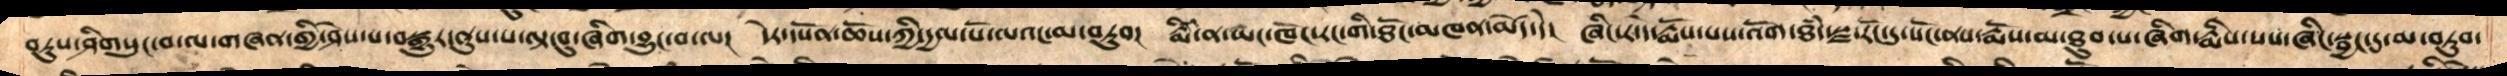བཏུས་ཤིགསུང་བ་ལ་གཞན་གྱི་ཤེས་པ་བསྒྱུར་ནུས་པ་ལྟ་བུ་ཞིག་བྱུང་བ་ལ།   དེར་དཔོན་ཆོས་ཀྱི་དྱལ་པོ་ལའང་མ་བཏུབ།   རྨིཾ་ན་ཡང་ཁོང་རང་གི་ཐོང་མཁན་མཛེད་དེ།   ཞིང་ར་དེ་རྨོས་པས་འོག་ཐཾད་སྫ་རོང་དུ་སོང་ནས་རྨོས་མ་ཐུབ་པ་ཞིག་རྨིས་པས་ཞིང་སྦྱང་དུ་མ་བཏུབ་
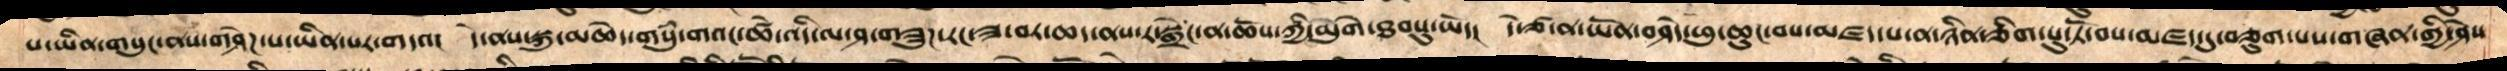པ་ཡིན་གསུང་ནས་གཤེཌ་པ་ཡིན་པར་གདའ།   དེ་ནས་སྐུ་མཆེད་གསུཾ་གའང་ཚེ་འདི་ལ་ཤ་གཟུཌ་རང་ཟ་བར་ཆད་ནས་ར་སྒྲེང་ན་ཆོས་ཀྱི་མུགེ་ཐབསུ་ཡོད།  དེ་ཙ་ན་ཡོན་བཤེད་ཕུ་ཆུང་བས་མཛད་པ་ན་ཉིན་ཅིག་པུ་ཏོ་བས་མཛད་དུ་བཅུག་པས་གཞན་གྱི་ཤེས
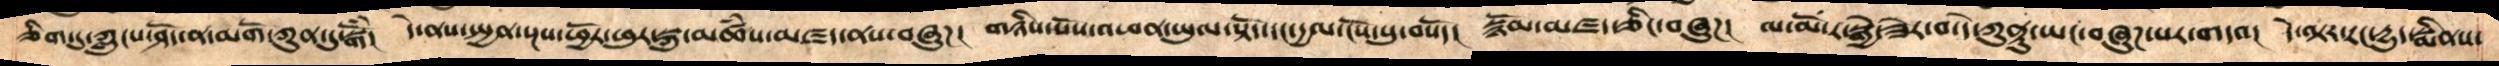ཅིག་དུ་ཀླུངས་ཤོད་ན་མགོ་ཀུན་དུ་སྒོཾ།   དེ་ནས་སྤྱན་སྔས་ཕྱོར་ཕུར་སྐུ་མཚཾས་མཛད་ནས་བཞུཌ།   གཉིས་པོས་འཕན་ཡུལ་སྟོད་དང་དྱལ་ངོས་སུ་བསོད།  སྙོམ་མཛད་ཅིང་བཞུཌ།   ལ་མོ་ར་སྒྱེ་ཟེར་བ་དེ་ཀུནྟུ་ཡང་བཞུཌ་པར་གདའ།   དེ་ལྟར་རང་དྱུད་སྨིནས་
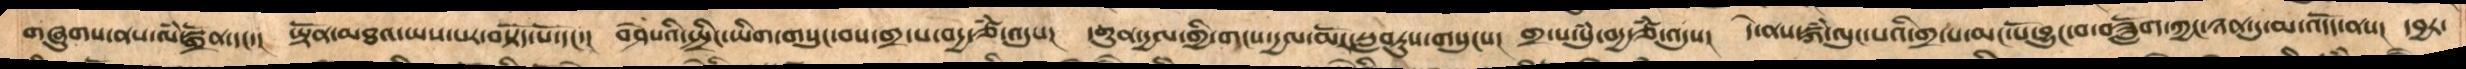གཞུགས་ནས་ལཾ་སྒྲོན་དང་།   ཡྟོན་མཐས་ཡས་པར་བསྟོད་པོ་དང་།   བཤེསའི་སྤྲིང་ཡིག་གསུང་བས་གྲ་པ་བདྱ་ཙཾ་འདུས།   དགུན་དྱལ་གྱི་གངས་དྱལ་མོར་སླབཏུས་གསུངས།   གྲ་པ་སུཾ་བདྱ་ཙཾ་འདུས།    དེ་ནས་སྐཾ་ལུང་པའི་གྲ་པ་མང་པོ་བྱུང་བ་བཟློག་ཀྱང་ཉན་དུ་མ་འདོད་ནས།  དབྱར་
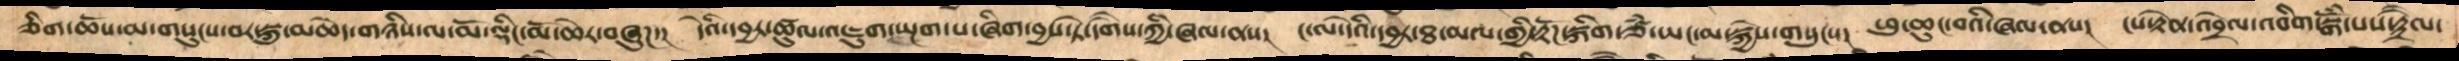ཅིག་ཆོས་མ་གསུངས་བར་སྐུ་མཆེད་གཉིས་ལ་མོ་ལྡིང་མོ་ཆེར་བཞུཌ་།   དེའི་དབྱར་ཚུལ་འཇུག་ཡྔག་པ་ཞིག་བྱས་ཏེ་དགཻས་ཀྱི་ཞལ་ནས།  ང་ལ་དེའི་དབྱར་ཐ་མལ་གྱི་རྟོཌ་སྐིག་ཙཾ་ཡང་མ་སྐྱེས་གསུངས།   ཕུ་ཆུང་བའི་ཞལ་ནས།  ངས་རྟེན་འབྲེལ་འབིག་སྒོཾ་པས་རྟྲྲཻལ་
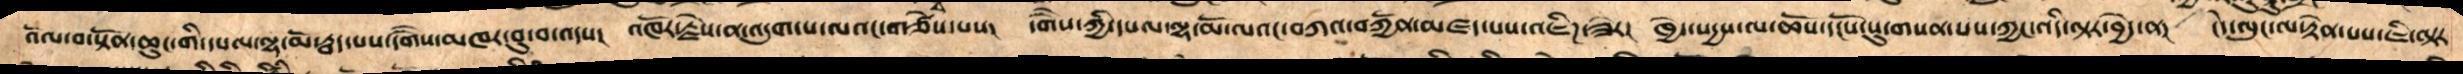འོལ་བ་སྟོན་ཆུང་གི་དཔལ་ལྷ་མོ་རྦད་པས་དགཻས་མཁར་བུ་བ་འདས།   འཁོར་རྗེས་ན་འདུག་པ་ལའང་གཙེས་པས།   དགཻས་ཀྱི་དཔལ་ལྷ་མོ་ལའང་བཀའ་བཀྱོན་མཛད་པས་འཇིཌ་ཟེར།    ཁྱེད་སདྱས་ལ་ཆོས་དངོས་སུ་གསན་པས་ཀྱང་འདི་ལྟར་བྱེད་ན།   ངེད་ལུང་ལ་རྟེན་པས་ཇི་ལྟར་
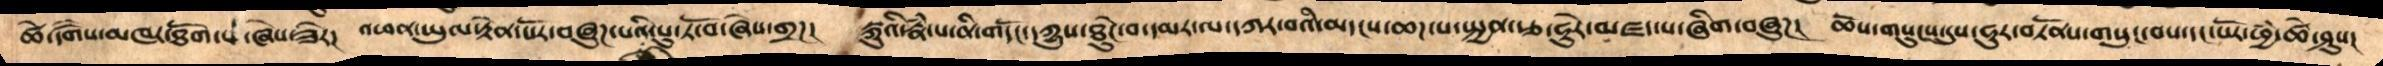ཚེ་དགཻས་མཁར་ཐོག་པ་ཞེེས་ཟེར།   འཕན་ཡུལ་རྟེན་པོར་བཞུཌ་པའི་པུ་ཏོ་བ་ཞེས་གྲཌ།   སྐུའི་རྣཾ་པ་ནི་གདོང་དཀྱུས་ཐེུང་བ་དམར་ལ་དཀར་བའི་མདངས་ཆཌ་པ་སྤྱན་རྩ་ཧུརེ་མཛད་པ་ཞིག་བཞུཌ།   ཆོས་གསུངས་དུས་ཧུར་བཏོནས་གསུང་བས་དང་པོར་ཕྱཾ་ཚེ་ཤུས།
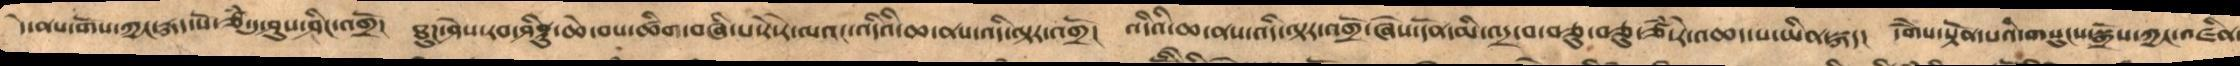དེ་ནས་གོས་ཀྱང་རྐད་པོ་ཙཾ་དུ་ཤུས་ཤིང་འགྲོ།   ཐུཌ་ཤེས་རབ་ཤིནྟུ་ཆེ་བས་ཚིག་བཞི་པ་རེ་རེ་ལའང་འདིའི་ཆ་ནས་འདི་ལྟར་འགྲོ།  འདིའི་ཆ་ནས་འདི་ལྟར་འགྲོ་ཞེས་དོན་མི་འདྲ་བ་བཅུ་བཅུ་ཙཾ་རེ་འཆད་པ་ཡིན་སྐད།   དགཻས་སྟོན་པའི་གསུངས་སྒྲོས་ཀྱང་འཛིན་
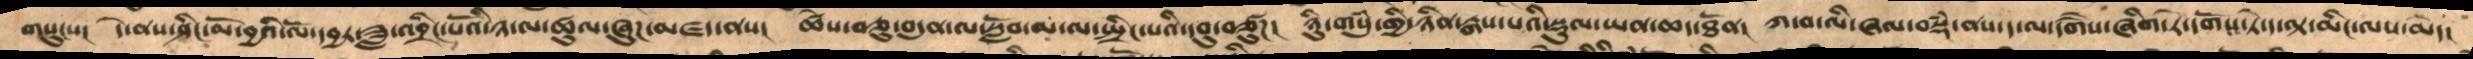གསུངས།   དེ་ནས་ཤིང་མོ་བྱའི་ལོ་དབྱར་ཟླ་འབྲིང་པོའི་ཉ་ལ་ཚུལ་ཞུཌ་མཛད་ནས།   ཚེས་བཅུ་བདུན་ལ་སློབ་མ་ལ་སྤྲིང་པའི་དབུ་བཙུཌ།   ཉིུ་གསུཾ་གྱི་ཉིན་རྒས་པའི་སྡུལ་ཡན་ཆད་ཐོན།  ཀ་བ་ལི་ཞལ་བསྡཾ་ནས་ད་ལ་དགཻས་ཞིག་རེ་དོགས་ཏེ་ད་ལྟ་མིང་ལས་མེད།
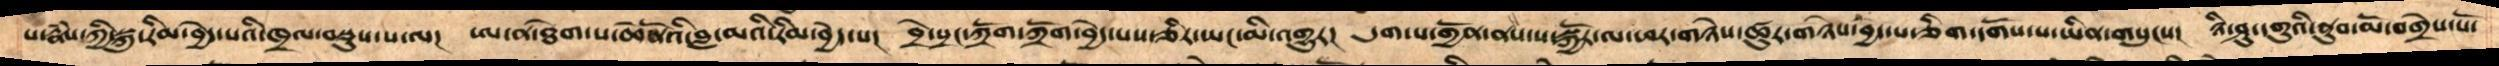པ་རྣཾས་ཀྱི་སྐུ་རིམ་བྱེད་པའི་ཁྲལ་བསྡུས་པ་ལ།  ཨ་ན་ཐེག་པ་ཆེནོའི་བླ་མའི་རིམ་བྱེད་པ།   བྲེ་སྲང་ཀྲོག་ཀྲོག་བྱེད་པས་ཅིར་ཡང་མི་འགྱུར།  དུག་ས་གྱོན་ནས་ས་སྐྱོར་ལ་ཕར་གཉེས་ཚུར་གཉེས་བྱེད་པ་ཅིག་དགོས་པ་ཡིན་གསུངས།   ཉི་ཤུ་དགུའི་ནུབ་མོ་བགྲེས་པོ་
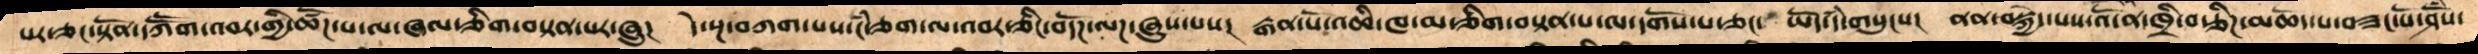པར་ཅང་སྟོན་དཀཽག་འབར་གྱི་ཚོཌ་པ་ལ་ཞལ་ཅིག་བསྟན་པར་ཞུ།    དེ་སང་བཀག་པས་ངཾ་ཅག་ལ་འབར་ཅིང་བདོཌ་ལཌ་ཞུས་པས།  རྒན་པོ་འཆི་ཁ་མ་ཅིག་བསྟན་པ་ལ་དགོས་པ་ཅང་  ཡོད་དཾ་གསུངས།   ནན་བསྐྱེད་པས་འོ་ན་ཁྲི་བ་རྩིཌ་མཆོད་པ་བཟང་པོ་ཤོསི་
